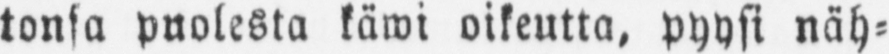tonsa puolesta käwi oikeutta, pyysi näh-
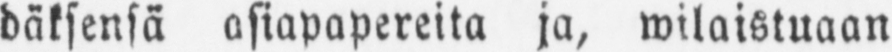däksensä asiapapereita ja, wilaistuaan
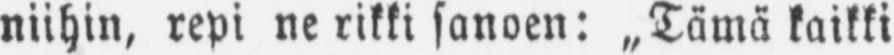niihin, repi ne rikki sanoen: „Tämä kaikki
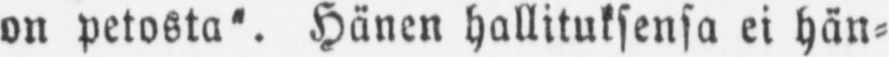on petosta'. Hänen hallituksensa ei hän-
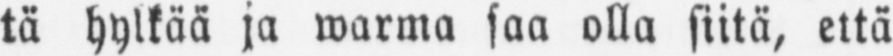tä hylkää ja warma saa olla siitä, että
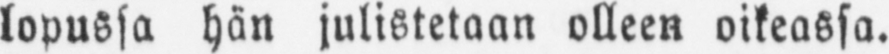lopussa hän julistetaan olleen oikeassa.
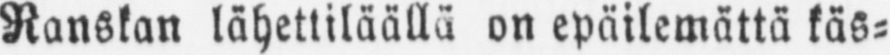Ranskan lähettiläällä on epäilemättä käs-
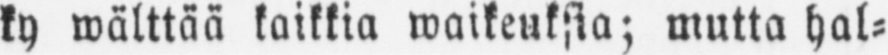ky wälttää kaikkia waikeuksia; mutta hal-
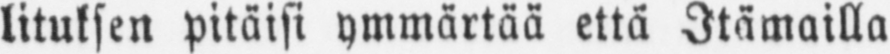lituksen pitäisi ymmärtää että Itämailla
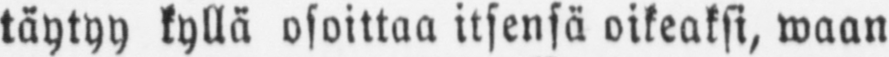täytyy kyllä osoittaa itsensä oikeaksi, waan
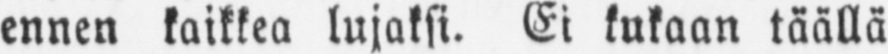ennen kaikkea lujaksi. Ei kukaan täällä
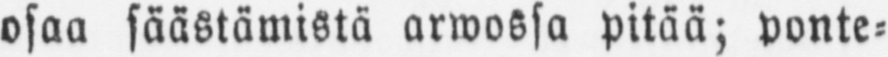osaa säästämistä arwossa pitää; ponte-
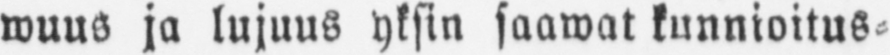wuus ja lujuus yksin saawat kunnioitus-
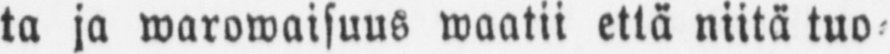ta ja warowaisuus waatii että niitä tuo-
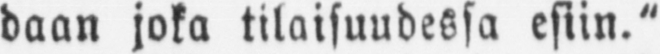daan joka tilaisuudessa esiin."
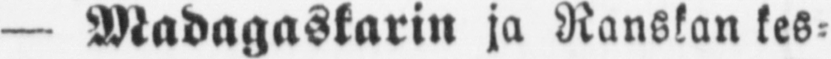— Madagaskarin ja Ranskan kes-
